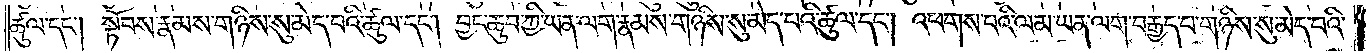ཚུལ་དང༌། སྟོབས་རྣམས་གཉིས་སུ་མེད་པའི་ཚུལ་དང༌། བྱང་ཆུབ་ཀྱི་ཡན་ལག་རྣམས་གཉིས་སུ་མེད་པའི་ཚུལ་དང༌། འཕགས་པའི་ལམ་ཡན་ལག་བརྒྱད་པ་གཉིས་སུ་མེད་པའི་
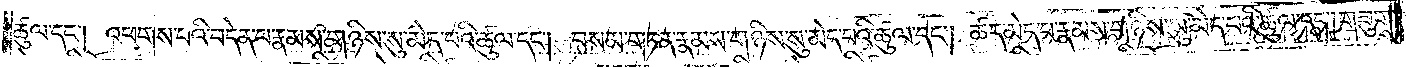ཚུལ་དང༌། འཕགས་པའི་བདེན་པ་རྣམས་གཉིས་སུ་མེད་པའི་ཚུལ་དང༌། བསམ་གཏན་རྣམས་གཉིས་སུ་མེད་པའི་ཚུལ་དང༌། ཚད་མེད་པ་རྣམས་གཉིས་སུ་མེད་པའི་ཚུལ་དང༌། གཟུགས་
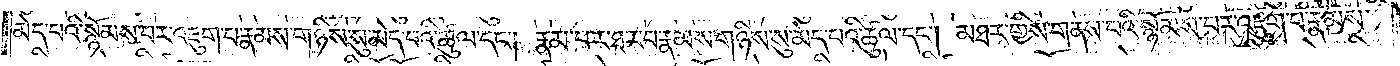མེད་པའི་སྙོམས་པར་འཇུག་པ་རྣམས་གཉིས་སུ་མེད་པའི་ཚུལ་དང༌། རྣམ་པར་ཐར་པ་རྣམས་གཉིས་སུ་མེད་པའི་ཚུལ་དང༌། མཐར་གྱིས་གནས་པའི་སྙོམས་པར་འཇུག་པ་རྣམས་
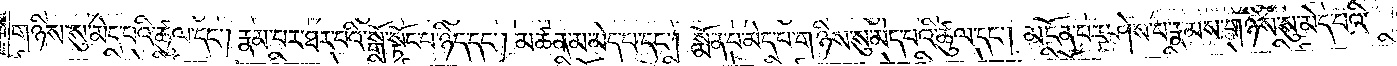གཉིས་སུ་མེད་པའི་ཚུལ་དང༌། རྣམ་པར་ཐར་པའི་སྒོ་སྟོང་པ་ཉིད་དང༌། མཚན་མ་མེད་པ་དང༌། སྨོན་པ་མེད་པ་གཉིས་སུ་མེད་པའི་ཚུལ་དང༌། མངོན་པར་ཤེས་པ་རྣམས་གཉིས་སུ་མེད་པའི་
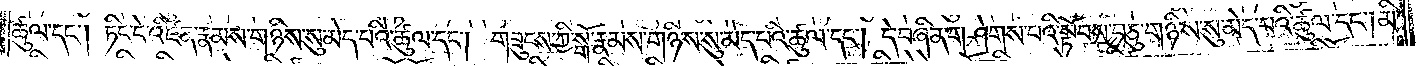ཚུལ་དང༌། ཏིང་ངེ་འཛིན་རྣམས་གཉིས་སུ་མེད་པའི་ཚུལ་དང༌། གཟུངས་ཀྱི་སྒོ་རྣམས་གཉིས་སུ་མེད་པའི་ཚུལ་དང༌། དེ་བཞིན་གཤེགས་པའི་སྟོབས་བཅུ་གཉིས་སུ་མེད་པའི་ཚུལ་དང༌། མི་
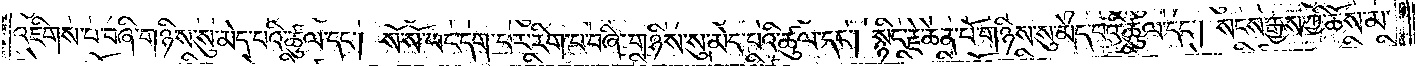འཇིགས་པ་བཞི་གཉིས་སུ་མེད་པའི་ཚུལ་དང༌། སོ་སོ་ཡང་དག་པར་རིག་པ་བཞི་གཉིས་སུ་མེད་པའི་ཚུལ་དང༌། སྙིང་རྗེ་ཆེན་པོ་གཉིས་སུ་མེད་པའི་ཚུལ་དང༌། སངས་རྒྱས་ཀྱི་ཆོས་མ་
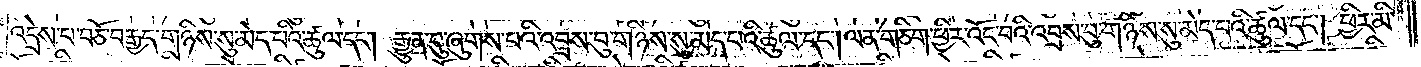འདྲེས་པ་བཅོ་བརྒྱད་གཉིས་སུ་མེད་པའི་ཚུལ་དང༌། རྒྱུན་དུ་ཞུགས་པའི་འབྲས་བུ་གཉིས་སུ་མེད་པའི་ཚུལ་དང༌། ལན་གཅིག་ཕྱིར་འོང་བའི་འབྲས་བུ་གཉིས་སུ་མེད་པའི་ཚུལ་དང༌། ཕྱིར་མི་
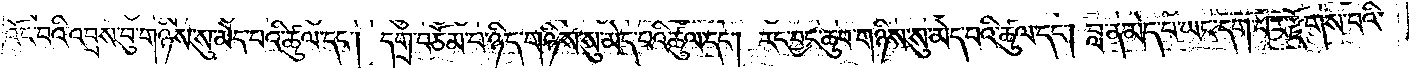འོང་བའི་འབྲས་བུ་གཉིས་སུ་མེད་པའི་ཚུལ་དང༌། དགྲ་བཅོམ་པ་ཉིད་གཉིས་སུ་མེད་པའི་ཚུལ་དང༌། རང་བྱང་ཆུབ་གཉིས་སུ་མེད་པའི་ཚུལ་དང༌། བླ་ན་མེད་པ་ཡང་དག་པར་རྫོགས་པའི་
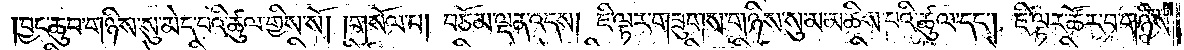བྱང་ཆུབ་གཉིས་སུ་མེད་པའི་ཚུལ་གྱིས་སོ། །གསོལ་པ། བཅོམ་ལྡན་འདས། ཇི་ལྟར་གཟུགས་གཉིས་སུ་མ་མཆིས་པའི་ཚུལ་དང༌། ཇི་ལྟར་ཚོར་བ་གཉིས་
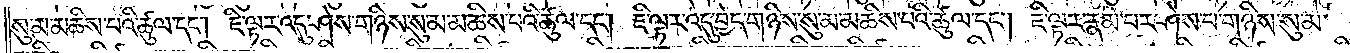སུ་མ་མཆིས་པའི་ཚུལ་དང༌། ཇི་ལྟར་འདུ་ཤེས་གཉིས་སུ་མ་མཆིས་པའི་ཚུལ་དང༌། ཇི་ལྟར་འདུ་བྱེད་གཉིས་སུ་མ་མཆིས་པའི་ཚུལ་དང༌། ཇི་ལྟར་རྣམ་པར་ཤེས་པ་གཉིས་སུ་མ་
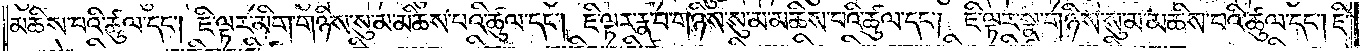མཆིས་པའི་ཚུལ་དང༌། ཇི་ལྟར་མིག་གཉིས་སུ་མ་མཆིས་པའི་ཚུལ་དང༌། ཇི་ལྟར་རྣ་བ་གཉིས་སུ་མ་མཆིས་པའི་ཚུལ་དང༌། ཇི་ལྟར་སྣ་གཉིས་སུ་མ་མཆིས་པའི་ཚུལ་དང༌། ཇི་
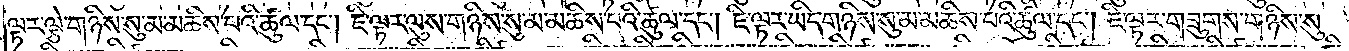ལྟར་ལྕེ་གཉིས་སུ་མ་མཆིས་པའི་ཚུལ་དང༌། ཇི་ལྟར་ལུས་གཉིས་སུ་མ་མཆིས་པའི་ཚུལ་དང༌། ཇི་ལྟར་ཡིད་གཉིས་སུ་མ་མཆིས་པའི་ཚུལ་དང༌། ཇི་ལྟར་གཟུགས་གཉིས་སུ་
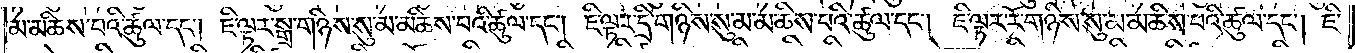མ་མཆིས་པའི་ཚུལ་དང༌། ཇི་ལྟར་སྒྲ་གཉིས་སུ་མ་མཆིས་པའི་ཚུལ་དང༌། ཇི་ལྟར་དྲི་གཉིས་སུ་མ་མཆིས་པའི་ཚུལ་དང༌། ཇི་ལྟར་རོ་གཉིས་སུ་མ་མཆིས་པའི་ཚུལ་དང༌། ཇི་
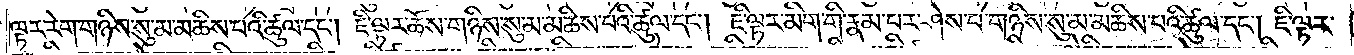ལྟར་རེག་གཉིས་སུ་མ་མཆིས་པའི་ཚུལ་དང༌། ཇི་ལྟར་ཆོས་གཉིས་སུ་མ་མཆིས་པའི་ཚུལ་དང༌། ཇི་ལྟར་མིག་གི་རྣམ་པར་ཤེས་པ་གཉིས་སུ་མ་མཆིས་པའི་ཚུལ་དང༌། ཇི་ལྟར་
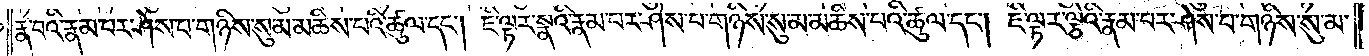རྣ་བའི་རྣམ་པར་ཤེས་པ་གཉིས་སུ་མ་མཆིས་པའི་ཚུལ་དང༌། ཇི་ལྟར་སྣའི་རྣམ་པར་ཤེས་པ་གཉིས་སུ་མ་མཆིས་པའི་ཚུལ་དང༌། ཇི་ལྟར་ལྕེའི་རྣམ་པར་ཤེས་པ་གཉིས་སུ་མ་
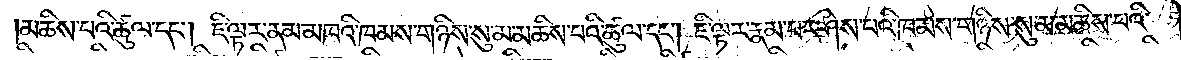མཆིས་པའི་ཚུལ་དང༌། ཇི་ལྟར་ནམ་མཁའི་ཁམས་གཉིས་སུ་མ་མཆིས་པའི་ཚུལ་དང༌། ཇི་ལྟར་རྣམ་པར་ཤེས་པའི་ཁམས་གཉིས་སུ་མ་མཆིས་པའི་
